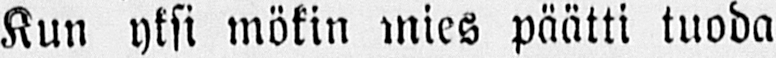Kun yksi mökin mies päätti tuoda
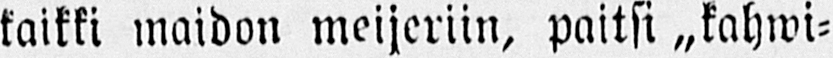kaikki maidon meijeriin, paitsi „kahwi-
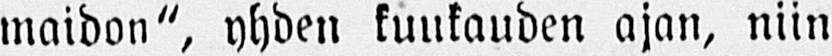maidon", yhden kuukauden ajan, niin
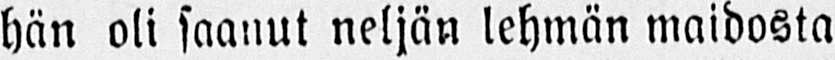hän oli saanut neljän lehmän maidosta
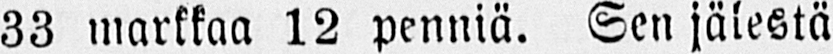33 markkaa 12 penniä. Sen jälestä
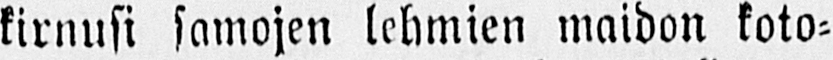kirnusi samojen lehmien maidon koto-
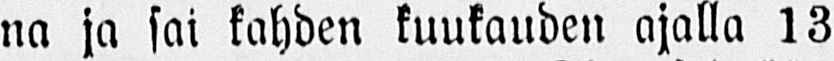na ja sai kahden kuukauden ajalla 13
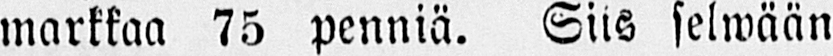markkaa 75 penniä. Siis selwään
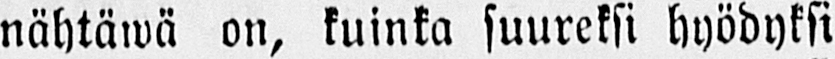nähtäwä on, kuinka suureksi hyödyksi
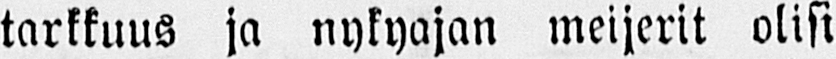tarkkuus ja nykyajan meijerit olisi
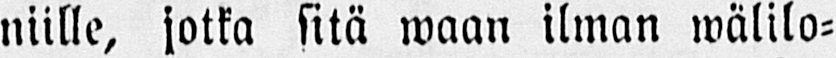niille, jotka sitä waan ilman wälilo-
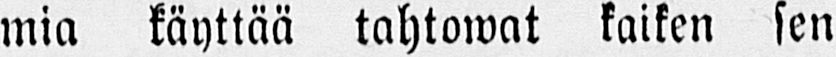mia käyttää tahtowat kaiken sen
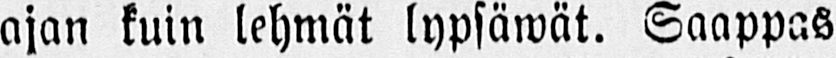ajan kuin lehmät lypsäwät. Saappas
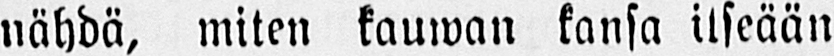nähdä, miten kauwan kansa itseään
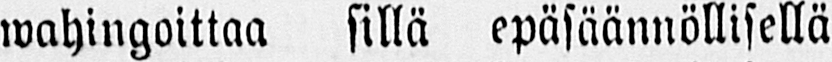wahingoittaa sillä epäsäännöllisellä
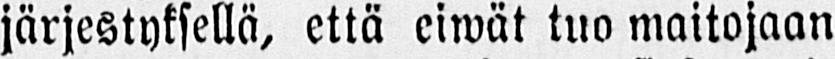järjestyksellä, että eiwät tuo maitojaan
